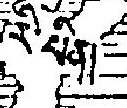རི་པིན།
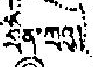གྲིན་ཀྲུའུ།
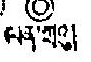ལན་ཀྲུའུ།
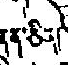ནན་ཅིན།
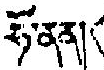ཧོ་ནན།
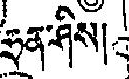ཧྲན་ཤིས།
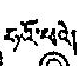ཧའོ་ཕའེ།
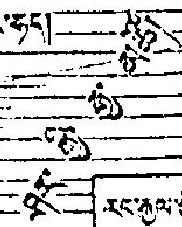ཤར་གྱི་རྒྱ་མཚོ།
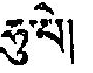ཧུ་པེ།
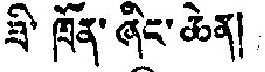ཟི་ཁྲོན་ཞིང་ཆེན།
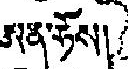ཨན་ཧོས།
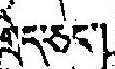གྲེད་ཅང་།
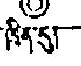ཁྲིན་དུ།
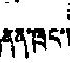ནན་ཁྲང་།
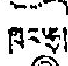ཁྲང་ཧྲ།
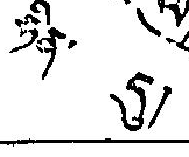ཧིན་དུ།
